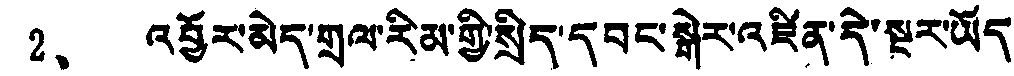2、 འབྱོར་མེད་གྲལ་རིམ་གྱི་སྲིད་དབང་སྒེར་འཛིན་དེ་སྔར་ཡོད
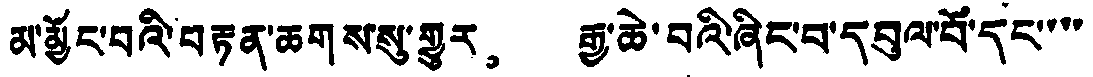མ་མྱོང་བའི་བརྟན་ཆགས་སུ་གྱུར。 རྒྱ་ཆེ་བའི་ཞིང་བ་དབུལ་བོ་དང་་་་
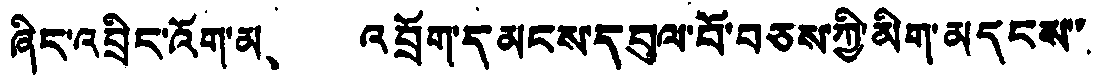ཞིང་འབྲིང་འོག་མ、 འབྲོག་དམངས་དབུལ་བོ་བཅས་ཀྱི་མིག་མདངས་
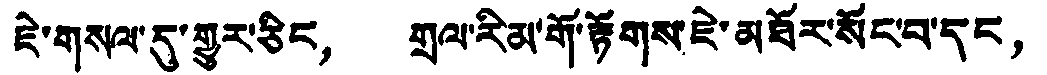ཇེ་གསལ་དུ་གྱུར་ཅིང， གྲལ་རིམ་གོ་རྟོགས་ཇེ་མཐོར་སོང་བ་དང，
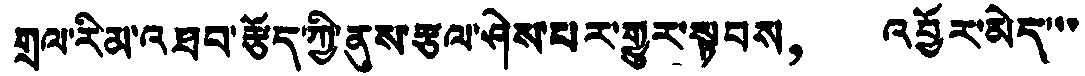གྲལ་རིམ་འཐབ་རྩོད་ཀྱི་ནུས་རྩལ་ཤེས་པར་གྱུར་སྟབས， འབྱོར་མེད་་་
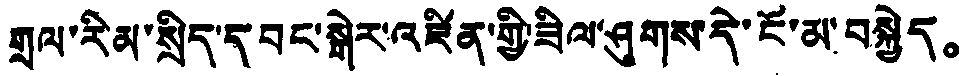གྲལ་རིམ་སྲིད་ད་བང་སྒེར་འཛིན་གྱི་ཟིལ་ཤུགས་དེ་ངོ་མ་བསྐྱེད。
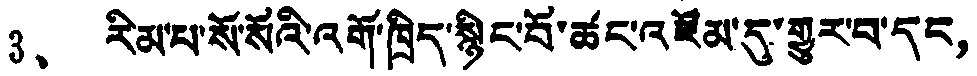3、 རིམ་པ་སོ་སོའི་འགོ་ཁྲིད་སྙིང་པོ་ཚང་འཛོམ་དུ་གྱུར་བ་དང，
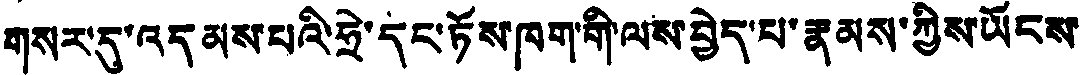གསར་དུ་འདམས་པའི་ཧྲེ་དང་ཏོས་ཁག་གི་ལས་བྱེད་པ་རྣམས་ཀྱིས་ཡོངས་
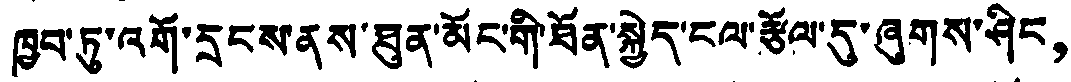ཁྱབ་ཏུ་འགོ་དྲངས་ནས་ཐུན་མོང་གི་ཐོན་སྐྱེད་ངལ་རྩོལ་དུ་ཞུགས་ཤིང，
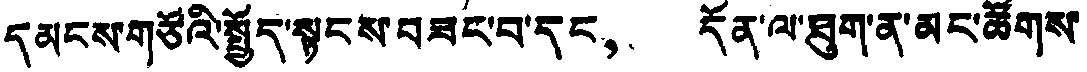དམངས་གཙོའི་སྤྱོད་སྟངས་བཟང་བ་དང， དོན་ལ་ཐུག་ན་མང་ཚོགས་
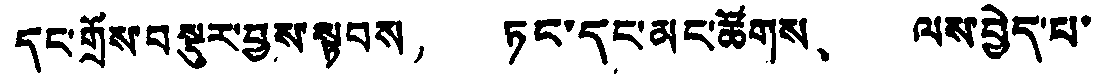དང་གྲོས་བསྡུར་བྱས་སྟབས， ཏང་དང་མང་ཚོགས、 ལས་བྱེད་པ་
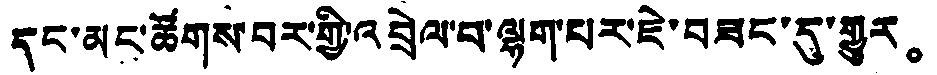དང་མང་ཚོགས་བར་གྱི་འབྲེལ་བ་ལྷག་པར་ཇེ་བཟང་དུ་གྱུར。
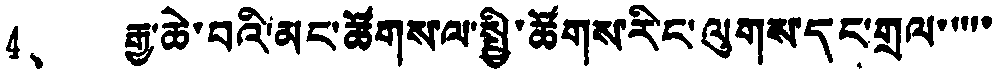4、 རྒྱ་ཆེ་བའི་མང་ཚོགས་ལ་སྤྱི་ཚོགས་རིང་ལུགས་དང་གྲལ་་་་་
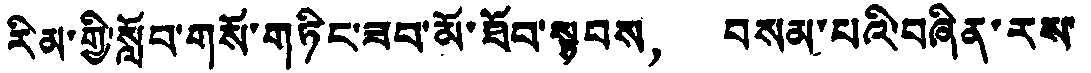རིམ་གྱི་སློབ་གསོ་གཏིང་ཟབ་མོ་ཐོབ་སྟབས， བསམ་པའི་བཞིན་རས་
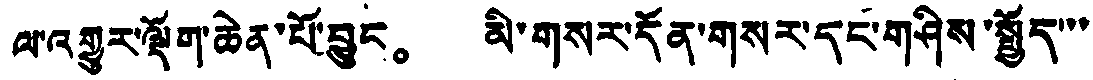ལ་འགྱུར་ལྡོག་ཆེན་པོ་བྱུང。 མི་གསར་དོན་གསར་དང་གཤིས་སྤྱོད་་་
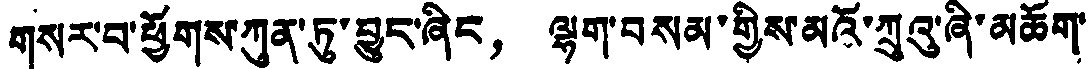གསར་བ་ཕྱོགས་ཀུན་ཏུ་བྱུང་ཞིང， ལྷག་བསམ་གྱིས་མའོ་ཀྲུའུ་ཞི་མཆོག་
